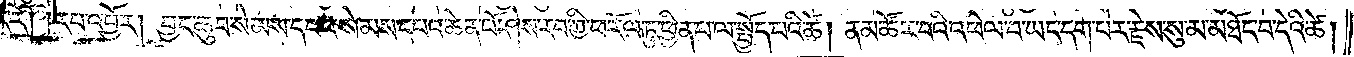རོ། །རབ་འབྱོར། བྱང་ཆུབ་སེམས་དཔའ་སེམས་དཔའ་ཆེན་པོ་ཤེས་རབ་ཀྱི་ཕ་རོལ་ཏུ་ཕྱིན་པ་ལ་སྤྱོད་པའི་ཚེ། ནམ་ཚོར་བའི་འཕེལ་བ་ཡང་དག་པར་རྗེས་སུ་མ་མཐོང་བ་དེའི་ཚེ།
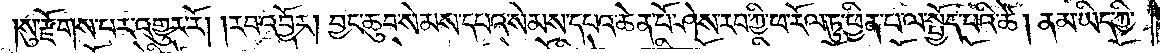སུ་རྫོགས་པར་འགྱུར་རོ། །རབ་འབྱོར། བྱང་ཆུབ་སེམས་དཔའ་སེམས་དཔའ་ཆེན་པོ་ཤེས་རབ་ཀྱི་ཕ་རོལ་ཏུ་ཕྱིན་པ་ལ་སྤྱོད་པའི་ཚེ། ནམ་ཡིད་ཀྱི་
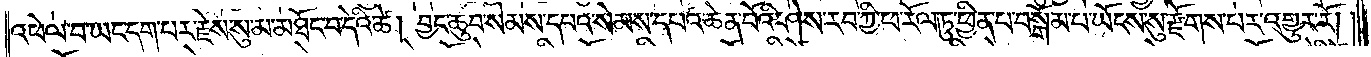འཕེལ་བ་ཡང་དག་པར་རྗེས་སུ་མ་མཐོང་བ་དེའི་ཚེ། བྱང་ཆུབ་སེམས་དཔའ་སེམས་དཔའ་ཆེན་པོའི་ཤེས་རབ་ཀྱི་ཕ་རོལ་ཏུ་ཕྱིན་པ་བསྒོམ་པ་ཡོངས་སུ་རྫོགས་པར་འགྱུར་རོ། །
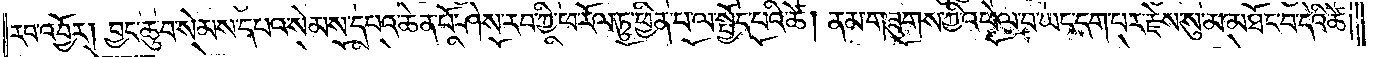རབ་འབྱོར། བྱང་ཆུབ་སེམས་དཔའ་སེམས་དཔའ་ཆེན་པོ་ཤེས་རབ་ཀྱི་ཕ་རོལ་ཏུ་ཕྱིན་པ་ལ་སྤྱོད་པའི་ཚེ། ནམ་གཟུགས་ཀྱི་འཕེལ་བ་ཡང་དག་པར་རྗེས་སུ་མ་མཐོང་བ་དེའི་ཚེ།
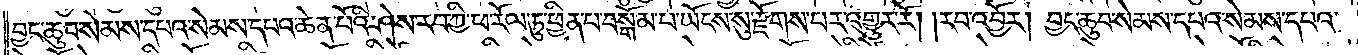བྱང་ཆུབ་སེམས་དཔའ་སེམས་དཔའ་ཆེན་པོའི་ཤེས་རབ་ཀྱི་ཕ་རོལ་ཏུ་ཕྱིན་པ་བསྒོམ་པ་ཡོངས་སུ་རྫོགས་པར་འགྱུར་རོ། །རབ་འབྱོར། བྱང་ཆུབ་སེམས་དཔའ་སེམས་དཔའ་
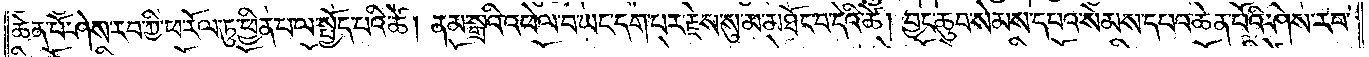ཆེན་པོ་ཤེས་རབ་ཀྱི་ཕ་རོལ་ཏུ་ཕྱིན་པ་ལ་སྤྱོད་པའི་ཚེ། ནམ་སྒྲའི་འཕེལ་བ་ཡང་དག་པར་རྗེས་སུ་མ་མཐོང་བ་དེའི་ཚེ། བྱང་ཆུབ་སེམས་དཔའ་སེམས་དཔའ་ཆེན་པོའི་ཤེས་རབ་
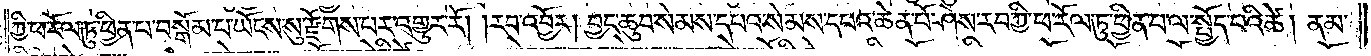ཀྱི་ཕ་རོལ་ཏུ་ཕྱིན་པ་བསྒོམ་པ་ཡོངས་སུ་རྫོགས་པར་འགྱུར་རོ། །རབ་འབྱོར། བྱང་ཆུབ་སེམས་དཔའ་སེམས་དཔའ་ཆེན་པོ་ཤེས་རབ་ཀྱི་ཕ་རོལ་ཏུ་ཕྱིན་པ་ལ་སྤྱོད་པའི་ཚེ། ནམ་
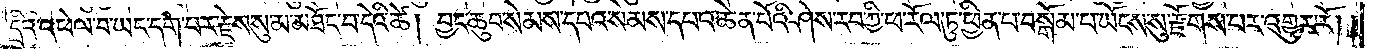དྲིའི་འཕེལ་བ་ཡང་དག་པར་རྗེས་སུ་མ་མཐོང་བ་དེའི་ཚེ། བྱང་ཆུབ་སེམས་དཔའ་སེམས་དཔའ་ཆེན་པོའི་ཤེས་རབ་ཀྱི་ཕ་རོལ་ཏུ་ཕྱིན་པ་བསྒོམ་པ་ཡོངས་སུ་རྫོགས་པར་འགྱུར་རོ། །
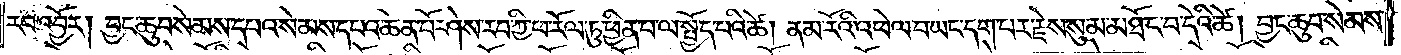རབ་འབྱོར། བྱང་ཆུབ་སེམས་དཔའ་སེམས་དཔའ་ཆེན་པོ་ཤེས་རབ་ཀྱི་ཕ་རོལ་ཏུ་ཕྱིན་པ་ལ་སྤྱོད་པའི་ཚེ། ནམ་རོའི་འཕེལ་བ་ཡང་དག་པར་རྗེས་སུ་མ་མཐོང་བ་དེའི་ཚེ། བྱང་ཆུབ་སེམས་
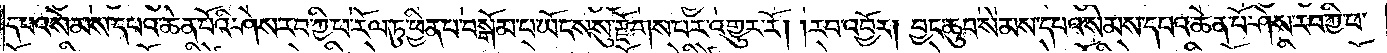དཔའ་སེམས་དཔའ་ཆེན་པོའི་ཤེས་རབ་ཀྱི་ཕ་རོལ་ཏུ་ཕྱིན་པ་བསྒོམ་པ་ཡོངས་སུ་རྫོགས་པར་འགྱུར་རོ། །རབ་འབྱོར། བྱང་ཆུབ་སེམས་དཔའ་སེམས་དཔའ་ཆེན་པོ་ཤེས་རབ་ཀྱི་ཕ་
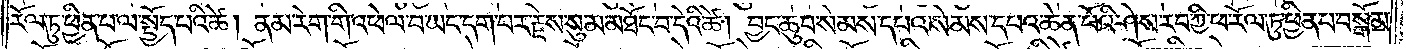རོལ་ཏུ་ཕྱིན་པ་ལ་སྤྱོད་པའི་ཚེ། ནམ་རེག་གི་འཕེལ་བ་ཡང་དག་པར་རྗེས་སུ་མ་མཐོང་བ་དེའི་ཚེ། བྱང་ཆུབ་སེམས་དཔའ་སེམས་དཔའ་ཆེན་པོའི་ཤེས་རབ་ཀྱི་ཕ་རོལ་ཏུ་ཕྱིན་པ་བསྒོམ་
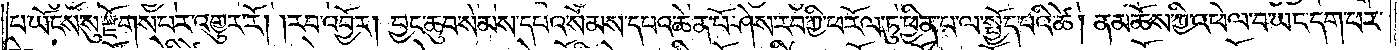པ་ཡོངས་སུ་རྫོགས་པར་འགྱུར་རོ། །རབ་འབྱོར། བྱང་ཆུབ་སེམས་དཔའ་སེམས་དཔའ་ཆེན་པོ་ཤེས་རབ་ཀྱི་ཕ་རོལ་ཏུ་ཕྱིན་པ་ལ་སྤྱོད་པའི་ཚེ། ནམ་ཆོས་ཀྱི་འཕེལ་བ་ཡང་དག་པར་
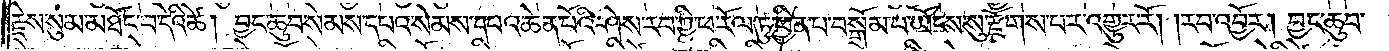རྗེས་སུ་མ་མཐོང་བ་དེའི་ཚེ། བྱང་ཆུབ་སེམས་དཔའ་སེམས་དཔའ་ཆེན་པོའི་ཤེས་རབ་ཀྱི་ཕ་རོལ་ཏུ་ཕྱིན་པ་བསྒོམ་པ་ཡོངས་སུ་རྫོགས་པར་འགྱུར་རོ། །རབ་འབྱོར། བྱང་ཆུབ་
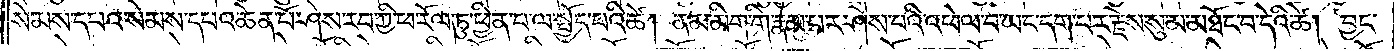སེམས་དཔའ་སེམས་དཔའ་ཆེན་པོ་ཤེས་རབ་ཀྱི་ཕ་རོལ་ཏུ་ཕྱིན་པ་ལ་སྤྱོད་པའི་ཚེ། ནམ་མིག་གི་རྣམ་པར་ཤེས་པའི་འཕེལ་བ་ཡང་དག་པར་རྗེས་སུ་མ་མཐོང་བ་དེའི་ཚེ། བྱང་
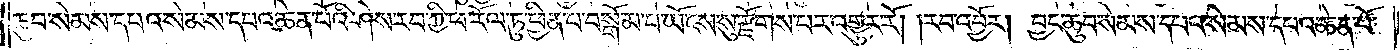ཆུབ་སེམས་དཔའ་སེམས་དཔའ་ཆེན་པོའི་ཤེས་རབ་ཀྱི་ཕ་རོལ་ཏུ་ཕྱིན་པ་བསྒོམ་པ་ཡོངས་སུ་རྫོགས་པར་འགྱུར་རོ། །རབ་འབྱོར། བྱང་ཆུབ་སེམས་དཔའ་སེམས་དཔའ་ཆེན་པོ་
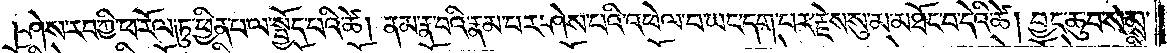ཤེས་རབ་ཀྱི་ཕ་རོལ་ཏུ་ཕྱིན་པ་ལ་སྤྱོད་པའི་ཚེ། ནམ་རྣ་བའི་རྣམ་པར་ཤེས་པའི་འཕེལ་བ་ཡང་དག་པར་རྗེས་སུ་མ་མཐོང་བ་དེའི་ཚེ། བྱང་ཆུབ་སེམས་
